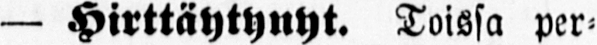— Hirttäytynyt. Toissa per-
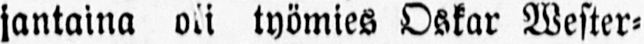jantaina oli työmies Oskar Wester-
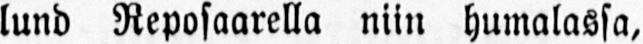lund Reposaarella niin humalassa,
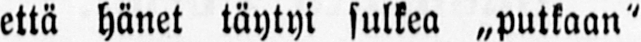että hänet täytyi sulkea „putkaan"
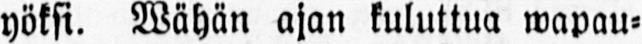yöksi. Wähän ajan kuluttua wapau-
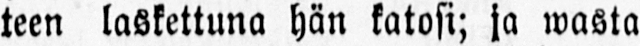teen laskettuna hän katosi; ja wasta
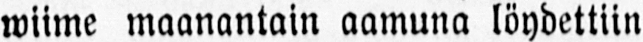wiime maanantain aamuna löydettiin
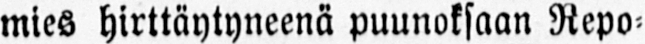mies hirttäytyneenä puunoksaan Repo-
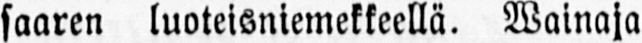saaren luoteisniemekkeellä. Wainaja
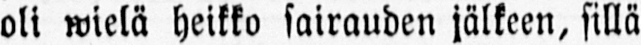oli wielä heikko sairauden jälkeen, sillä
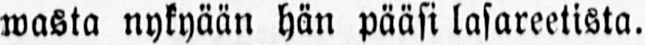wasta nykyään hän pääsi lasareetista.
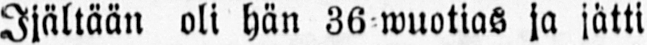Ijältään oli hän 36-wuotias ja jätti
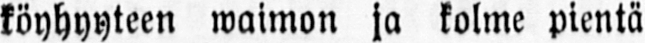köyhyyteen waimon ja kolme pientä
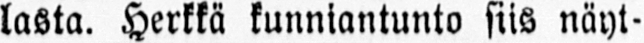lasta. Herkkä kunniantunto siis näyt-
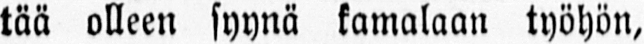tää olleen syynä kamalaan työhön,
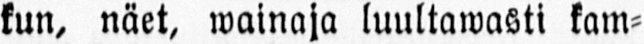kun, näet, wainaja luultawasti kam-
